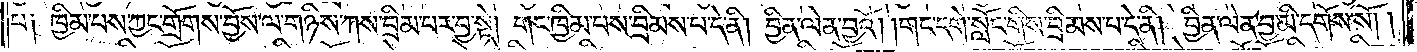པ༑ ཁྱིམ་པས་ཀྱང་གྲོགས་བྱོས་ལ་གཉིས་ཀས་བྲིམ་པར་བྱ་སྟེ། གང་ཁྱིམ་པས་བྲིམས་པ་དེ་ནི། བྱིན་ལེན་བྱའོ། །གང་དགེ་སློང་གིས་བྲིམས་པ་དེ་ནི། བྱིན་ལེན་བྱ་མི་དགོས་སོ། །
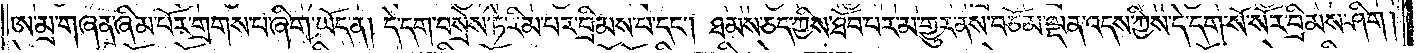ཨ་མྲ་གཞན་ཞིམ་པོར་གྲགས་པ་ཞིག་ཡོད་ན། དེ་དག་བསྲེས་ཏེ་རིམ་པར་བྲིམས་པ་དང༌། ཐམས་ཅད་ཀྱིས་ཐོབ་པར་མ་གྱུར་ནས་བཅོམ་ལྡན་འདས་ཀྱིས་དེ་དག་སོ་སོར་བྲིམས་ཤིག །
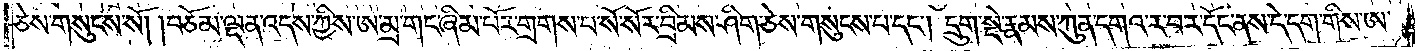ཅེས་གསུངས་སོ། །བཅོམ་ལྡན་འདས་ཀྱིས་ཨ་མྲ་གང་ཞིམ་པོར་གྲགས་པ་སོ་སོར་བྲིམས་ཤིག་ཅེས་གསུངས་པ་དང༌། དྲུག་སྡེ་རྣམས་ཀུན་དགའ་ར་བར་དོང་ནས་དེ་དག་གིས་ཨ་
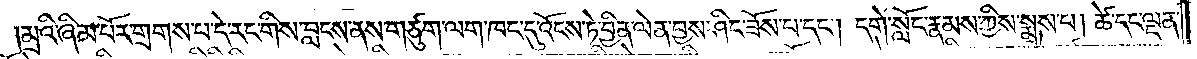མྲའི་ཞིམ་པོར་གྲགས་པ་དེ་རང་གིས་བླངས་ནས་གཙུག་ལག་ཁང་དུ་འོངས་ཏེ་བྱིན་ལེན་བྱས་ཤིང་ཟོས་པ་དང༌། དགེ་སློང་རྣམས་ཀྱིས་སྨྲས་པ། ཚེ་དང་ལྡན་
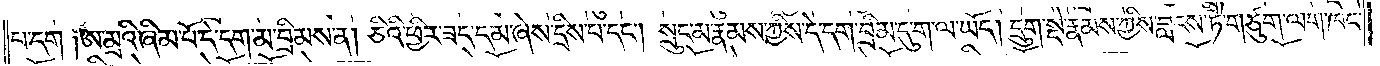པ་དག་༑ཨ་མྲའི་ཞིམ་པོ་དེ་དག་མ་བྲིམས་ན། ཅིའི་ཕྱིར་ཟད་དམ་ཞེས་དྲིས་པ་དང༌། སྲུང་མ་རྣམས་ཀྱིས་དེ་དག་བྲིམ་དུ་ག་ལ་ཡོད། དྲུག་སྡེ་རྣམས་ཀྱིས་བླངས་ཏེ་གཙུག་ལག་ཁང་
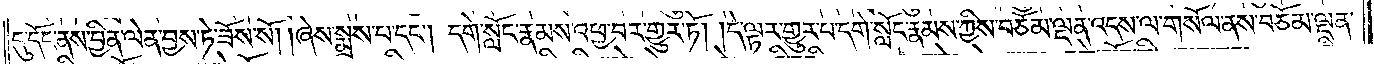དུ་དོང་ནས་བྱིན་ལེན་བྱས་ཏེ་ཟོས་སོ། །ཞེས་སྨྲས་པ་དང༌། དགེ་སློང་རྣམས་འཕྱ་བར་གྱུར་ཏོ། །དེ་ལྟར་གྱུར་པ་དགེ་སློང་རྣམས་ཀྱིས་བཅོམ་ལྡན་འདས་ལ་གསོལ་ནས་བཅོམ་ལྡན་
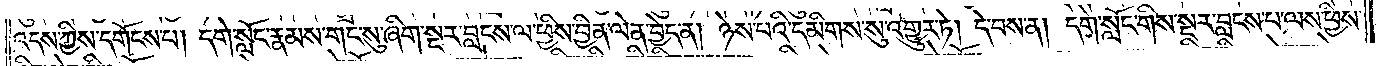འདས་ཀྱིས་དགོངས་པ། དགེ་སློང་རྣམས་གང་སུ་ཞིག་སྔར་བླངས་ལ་ཕྱིས་བྱིན་ལེན་བྱེད་ན། ཉེས་པའི་དམིགས་སུ་འགྱུར་ཏེ། དེ་བས་ན། དགེ་སློང་གིས་སྔར་བླངས་པ་ལས་ཕྱིས་
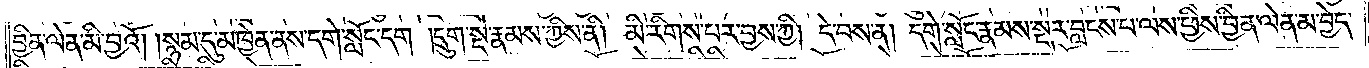བྱིན་ལེན་མི་བྱའོ། །སྙམ་དུ་མཁྱེན་ནས་དགེ་སློང་དག །དྲུག་སྡེ་རྣམས་ཀྱིས་ནི། མི་རིགས་པར་བྱས་ཀྱི། དེ་བས་ན། དགེ་སློང་རྣམས་སྔར་བླངས་པ་ལས་ཕྱིས་བྱིན་ལེན་མ་བྱེད་
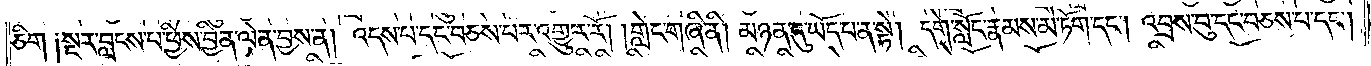ཅིག་༑སྔར་བླངས་པ་ཕྱིས་བྱིན་ལེན་བྱས་ན། འདས་པ་དང་བཅས་པར་འགྱུར་རོ། །གླེང་གཞི་ནི། མཉན་དུ་ཡོད་པ་ན་སྟེ། དགེ་སློང་རྣམས་མེ་ཏོག་དང༌། འབྲས་བུ་དང་བཅས་པ་དང༌།
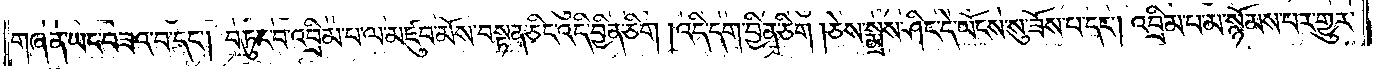གཞན་ཡང་བཟའ་བ་དང༌། བཏུང་བ་འབྲིམ་པ་ལ་མཛུབ་མོས་བསྟན་ཅིང་འདི་བྱིན་ཅིག །འདི་དག་བྱིན་ཅིག །ཅེས་སྨྲས་ཤིང་དེ་ཡོངས་སུ་ཟོས་པ་དང༌། འབྲིམ་པ་མ་སྙོམས་པར་གྱུར་
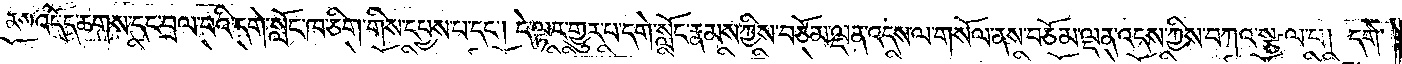ནས་འདོད་ཆགས་དང་བྲལ་བའི་དགེ་སློང་ཁ་ཅིག་གིས་དཔྱས་པ་དང༌། དེ་ལྟར་གྱུར་པ་དགེ་སློང་རྣམས་ཀྱིས་བཅོམ་ལྡན་འདས་ལ་གསོལ་ནས་བཅོམ་ལྡན་འདས་ཀྱིས་བཀའ་སྩལ་པ། དགེ་
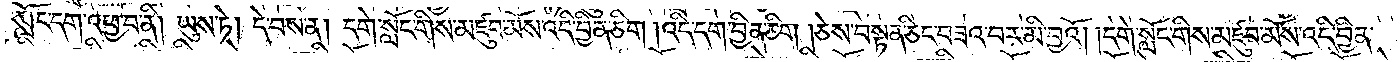སློང་དག་འཕྱ་བ་ནི། ཡུས་ཏེ། དེ་བས་ན། དགེ་སློང་གིས་མཛུབ་མོས་འདི་བྱིན་ཅིག །འདི་དག་བྱིན་ཅིག །ཅེས་བསྟན་ཅིང་བཟའ་བར་མི་བྱའོ། །དགེ་སློང་གིས་མཛུབ་མོས་འདི་བྱིན་
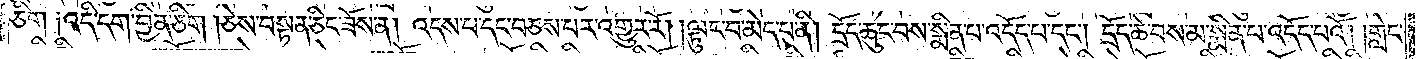ཅིག་འདི་དག་བྱིན་ཅིག །ཅེས་བསྟེན་ཅིང་ཟོས་ན། འདས་པ་དང་བཅས་པར་འགྱུར་རོ། །ལྟུང་བ་མེད་པ་ནི། དྲོད་ཆུང་བས་སྨིན་པ་འདོད་པ་དང༌། དྲོད་ཆེ་བས་མ་སྨིན་པ་འདོད་པའོ། །གླེང་
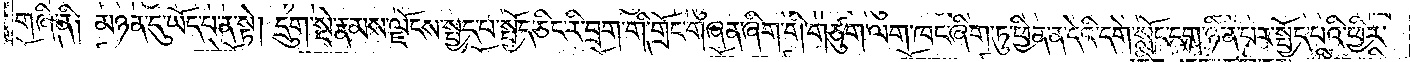གཞི་ནི༑ མཉན་དུ་ཡོད་པ་ན་སྟེ། དྲུག་སྡེ་རྣམས་ལྗོངས་སྤྱད་པ་སྤྱོད་ཅིང་རི་བྲག་གི་གྲོང་གཞན་ཞིག་གི་གཙུག་ལག་ཁང་ཞིག་ཏུ་ཕྱིན་ན་དེའི་དགེ་སློང་དག་ཉིན་པར་སྤྱོད་པའི་ཕྱིར་
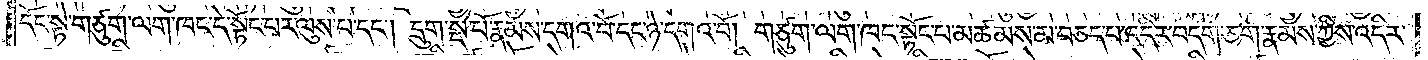དོང་སྟེ་གཙུག་ལག་ཁང་དེ་སྟོང་པར་ལུས་པ་དང༌། དྲུག་སྡེ་པོ་རྣམས་དགའ་བོ་དང་ཉེ་དགའ་བོ། གཙུག་ལག་ཁང་སྟོང་པ་མཚམས་མ་བཅད་པ་འདིར་བདག་ཅག་རྣམས་ཀྱིས་འདིར་
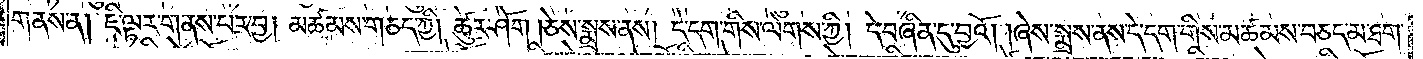གནས་ན། ཇི་ལྟར་གནས་པར་བྱ། མཚམས་གཅད་ཀྱི། ཚུར་ཤོག །ཅེས་སྨྲས་ནས། དེ་དག་གིས་ལེགས་ཀྱི། དེ་བཞིན་དུ་བྱའོ། །ཞེས་སྨྲས་ནས་དེ་དག་གིས་མཚམས་བཅད་མ་ཐག་
